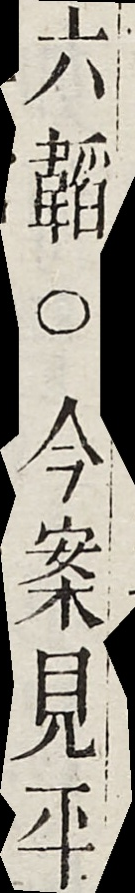六韜○今案見平
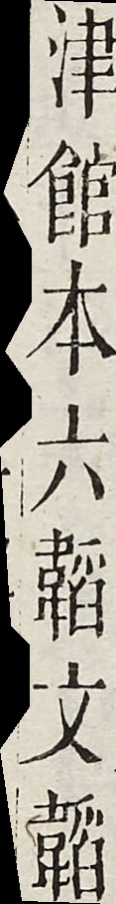津館本六韜文韜
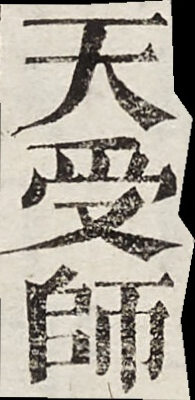天受師
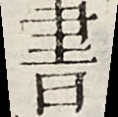書
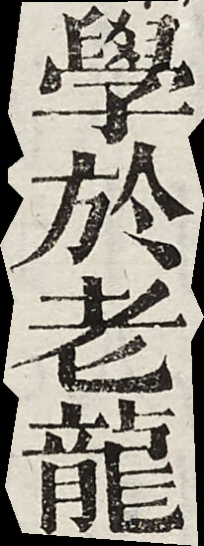學於老龍
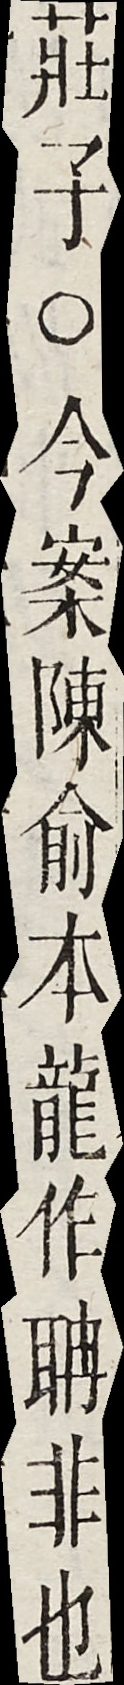莊子○今案陳俞本龍作聃非也
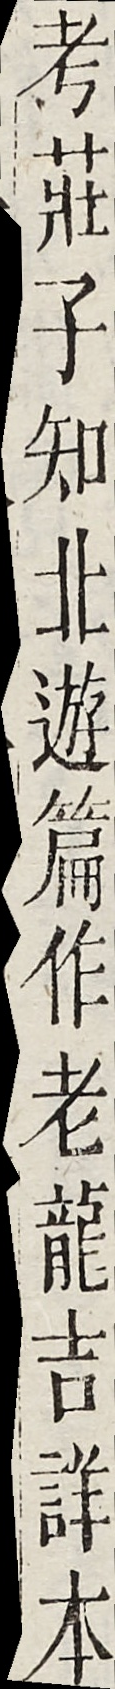考莊子知北遊篇作老龍吉詳本
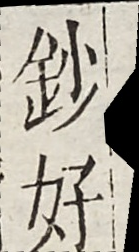鈔好
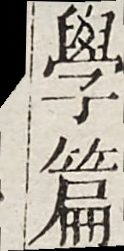學篇
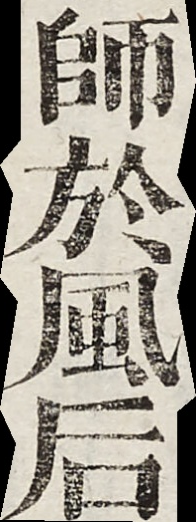師於風后
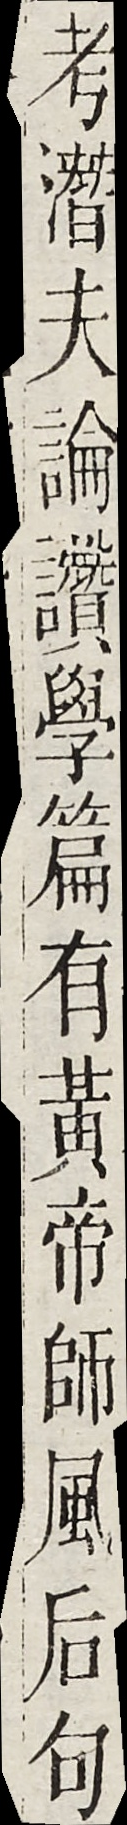考潛夫論讚學篇有黃帝師風后句
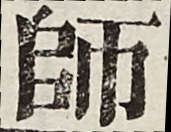師
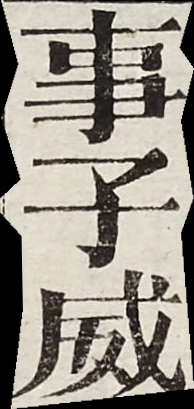事子威
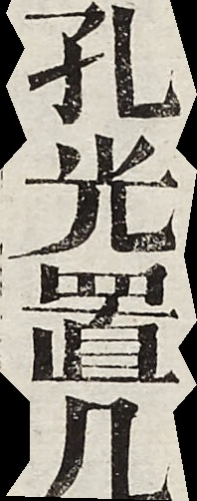孔光置几
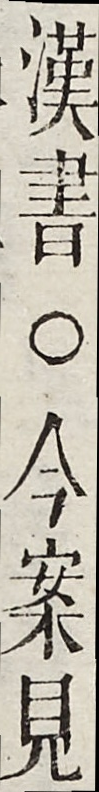漢書○今案見
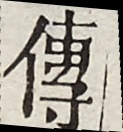傳
